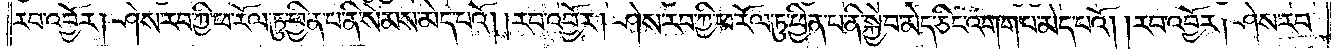རབ་འབྱོར། ཤེས་རབ་ཀྱི་ཕ་རོལ་ཏུ་ཕྱིན་པ་ནི་སེམས་མེད་པའོ། །རབ་འབྱོར། ཤེས་རབ་ཀྱི་ཕ་རོལ་ཏུ་ཕྱིན་པ་ནི་སྐྱེ་བ་མེད་ཅིང་འགག་པ་མེད་བའོ། །རབ་འབྱོར། ཤེས་རབ་
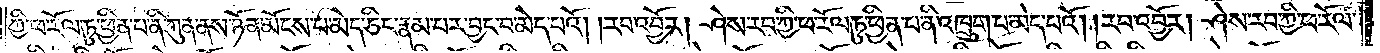ཀྱི་ཕ་རོལ་ཏུ་ཕྱིན་པ་ནི་ཀུན་ནས་ཉོན་མོངས་པ་མེད་ཅིང་རྣམ་པར་བྱང་བ་མེད་པའོ། །རབ་འབྱོར། ཤེས་རབ་ཀྱི་ཕ་རོལ་ཏུ་ཕྱིན་པ་ནི་འཁྲུག་པ་མེད་པའོ། །རབ་འབྱོར། ཤེས་རབ་ཀྱི་ཕ་རོལ་
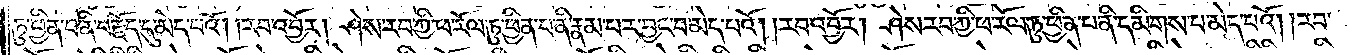ཏུ་ཕྱིན་པ་ནི་བརྗོད་དུ་མེད་པའོ། །རབ་འབྱོར། ཤེས་རབ་ཀྱི་ཕ་རོལ་ཏུ་ཕྱིན་པ་ནི་རྣམ་པར་བྱང་བ་མེད་པའོ། །རབ་འབྱོར། ཤེས་རབ་ཀྱི་ཕ་རོལ་ཏུ་ཕྱིན་པ་ནི་དམིགས་པ་མེད་པའོ། །རབ་
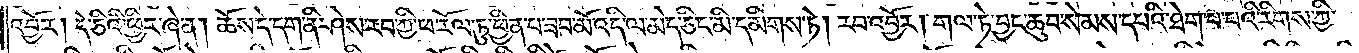འབྱོར། དེ་ཅིའི་ཕྱིར་ཞེ་ན། ཆོས་དེ་དག་ནི་ཤེས་རབ་ཀྱི་ཕ་རོལ་ཏུ་ཕྱིན་པ་ཟབ་མོ་འདི་ལ་མེད་ཅིང་མི་དམིགས་ཏེ། རབ་འབྱོར། གལ་ཏེ་བྱང་ཆུབ་སེམས་དཔའ་ཐེག་པ་པའི་རིགས་ཀྱི་
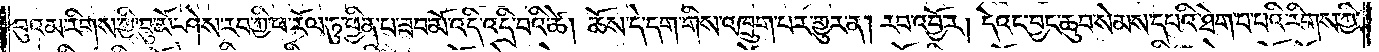བུའམ་རིགས་ཀྱི་བུ་མོ་ཤེས་རབ་ཀྱི་ཕ་རོལ་ཏུ་ཕྱིན་པ་ཟབ་མོ་འདི་འདྲི་བའི་ཚེ། ཆོས་དེ་དག་གིས་འཁྲུག་པར་གྱུར་ན། རབ་འབྱོར། དེའང་བྱང་ཆུབ་སེམས་དཔའི་ཐེག་པ་པའི་རིགས་ཀྱི་
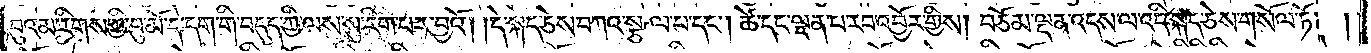བུའམ་རིགས་ཀྱི་བུ་མོ་དེ་དག་གི་བདུད་ཀྱི་ལས་སུ་རིག་པར་བྱའོ། །དེ་སྐད་ཅེས་བཀའ་སྩལ་པ་དང༌། ཚེ་དང་ལྡན་པ་རབ་འབྱོར་གྱིས། བཅོམ་ལྡན་འདས་ལ་འདི་སྐད་ཅེས་གསོལ་ཏོ། །
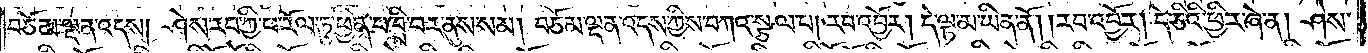བཅོམ་ལྡན་འདས། ཤེས་རབ་ཀྱི་ཕ་རོལ་ཏུ་ཕྱིན་པ་བྲི་བར་ནུས་སམ། བཅོམ་ལྡན་འདས་ཀྱིས་བཀའ་སྩལ་པ། རབ་འབྱོར། དེ་ལྟ་མ་ཡིན་ནོ། །རབ་འབྱོར། དེ་ཅིའི་ཕྱིར་ཞེ་ན། ཤེས་
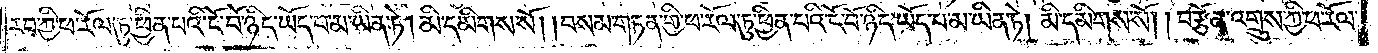རབ་ཀྱི་ཕ་རོལ་ཏུ་ཕྱིན་པའི་ངོ་བོ་ཉིད་ཡོད་པ་མ་ཡིན་ཏེ། མི་དམིགས་སོ། །བསམ་གཏན་གྱི་ཕ་རོལ་ཏུ་ཕྱིན་པའི་ངོ་བོ་ཉིད་ཡོད་པ་མ་ཡིན་ཏེ། མི་དམིགས་སོ། །བརྩོན་འགྲུས་ཀྱི་ཕ་རོལ་
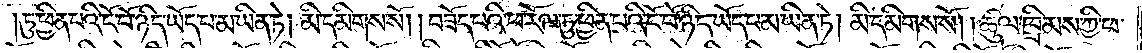ཏུ་ཕྱིན་པའི་ངོ་བོ་ཉིད་ཡོད་པ་མ་ཡིན་ཏེ། མི་དམིགས་སོ། །བཟོད་པའི་ཕ་རོལ་ཏུ་ཕྱིན་པའི་ངོ་བོ་ཉིད་ཡོད་པ་མ་ཡིན་ཏེ། མི་དམིགས་སོ། །ཚུལ་ཁྲིམས་ཀྱི་ཕ་
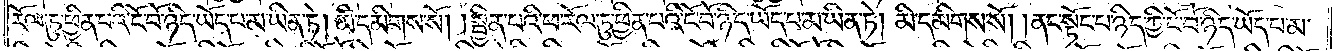རོལ་ཏུ་ཕྱིན་པའི་ངོ་བོ་ཉིད་ཡོད་པ་མ་ཡིན་ཏེ། མི་དམིགས་སོ། །སྦྱིན་པའི་ཕ་རོལ་ཏུ་ཕྱིན་པའི་ངོ་བོ་ཉིད་ཡོད་པ་མ་ཡིན་ཏེ། མི་དམིགས་སོ། །ནང་སྟོང་པ་ཉིད་ཀྱི་ངོ་བོ་ཉིད་ཡོད་པ་མ་
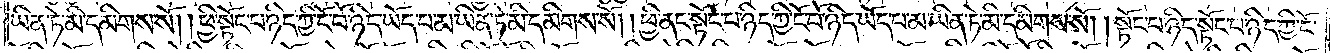ཡིན་ཏེ་མི་དམིགས་སོ། །ཕྱི་སྟོང་པ་ཉིད་ཀྱི་ངོ་བོ་ཉིད་ཡོད་པ་མ་ཡིན་ཏེ་མི་དམིགས་སོ། །ཕྱི་ནང་སྟོང་པ་ཉིད་ཀྱི་ངོ་བོ་ཉིད་ཡོད་པ་མ་ཡིན་ཏེ་མི་དམིགས་སོ། །སྟོང་པ་ཉིད་སྟོང་པ་ཉིད་ཀྱི་ངོ་
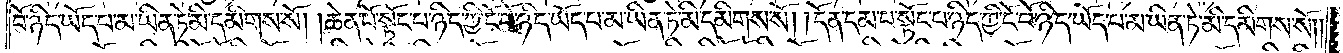བོ་ཉིད་ཡོད་པ་མ་ཡིན་ཏེ་མི་དམིགས་སོ། །ཆེན་པོ་སྟོང་པ་ཉིད་ཀྱི་ངོ་བོ་ཉིད་ཡོད་པ་མ་ཡིན་ཏེ་མི་དམིགས་སོ། །དོན་དམ་པ་སྟོང་པ་ཉིད་ཀྱི་ངོ་བོ་ཉིད་ཡོད་པ་མ་ཡིན་ཏེ་མི་དམིགས་སོ། །
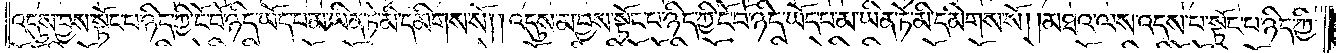འདུས་བྱས་སྟོང་པ་ཉིད་ཀྱི་ངོ་བོ་ཉིད་ཡོད་པ་མ་ཡིན་ཏེ་མི་དམིགས་སོ། །འདུས་མ་བྱས་སྟོང་པ་ཉིད་ཀྱི་ངོ་བོ་ཉིད་ཡོད་པ་མ་ཡིན་ཏེ་མི་དམིགས་སོ། །མཐའ་ལས་འདས་པ་སྟོང་པ་ཉིད་ཀྱི་
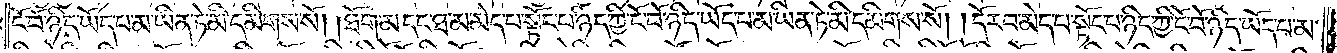ངོ་བོ་ཉིད་ཡོད་པ་མ་ཡིན་ཏེ་མི་དམིགས་སོ། །ཐོག་མ་དང་ཐ་མ་མེད་པ་སྟོང་པ་ཉིད་ཀྱི་ངོ་བོ་ཉིད་ཡོད་པ་མ་ཡིན་ཏེ་མི་དམིགས་སོ། །དོར་བ་མེད་པ་སྟོང་པ་ཉིད་ཀྱི་ངོ་བོ་ཉིད་ཡོད་པ་མ་
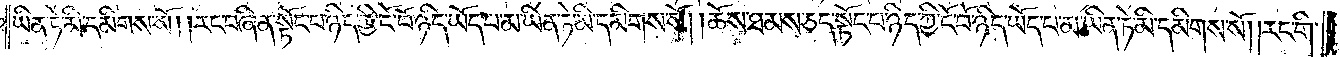ཡིན་ཏེ་མི་དམིགས་སོ། །རང་བཞིན་སྟོང་པ་ཉིད་ཀྱི་ངོ་བོ་ཉིད་ཡོད་པ་མ་ཡིན་ཏེ་མི་དམིགས་སོ། །ཆོས་ཐམས་ཅད་སྟོང་པ་ཉིད་ཀྱི་ངོ་བོ་ཉིད་ཡོད་པ་མ་ཡིན་ཏེ་མི་དམིགས་སོ། །རང་གི་
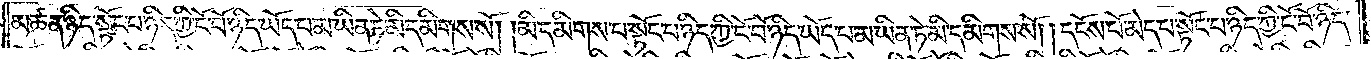མཚན་ཉིད་སྟོང་པ་ཉིད་ཀྱི་ངོ་བོ་ཉིད་ཡོད་པ་མ་ཡིན་ཏེ་མི་དམིགས་སོ། །མི་དམིགས་པ་སྟོང་པ་ཉིད་ཀྱི་ངོ་བོ་ཉིད་ཡོད་པ་མ་ཡིན་ཏེ་མི་དམིགས་སོ། །དངོས་པོ་མེད་པ་སྟོང་པ་ཉིད་ཀྱི་ངོ་བོ་ཉིད་
